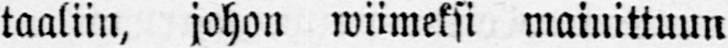taliin, johon wiiimeksi mainittuun
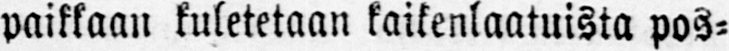paikkaan kuletetaan kaikenlaatuista pos-
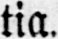tia.
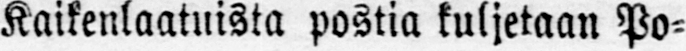Kaikenlaatuista postia kuljetaan Po-
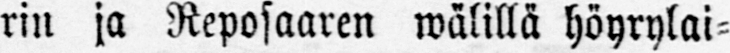rin ja Reposaaren wälillä höyrylai-
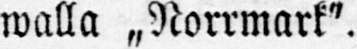walla „Norrmark".
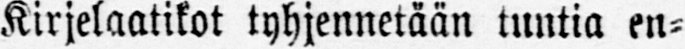Kirjelaatikot tyhjennetään tuntia en-
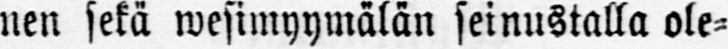nen sekä wesimyymälän seinustalla ole-
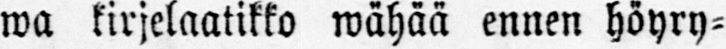wa kirjelaatikko wähää ennen höyry-
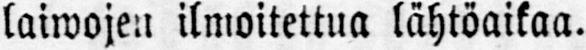laiwojen ilmoitettua lähtöaikaa.
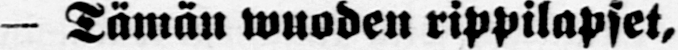— Tämän wuoden rippilapiet,
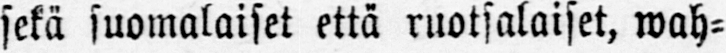sekä suomalaiset että ruotsalaiset, wah-
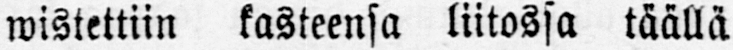wistettiin kasteensa liitossa täällä
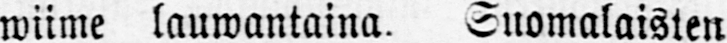wiime lauwantaina. Suomalaisten
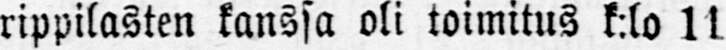rippilasten kanssa oli toimitus k:lo 11
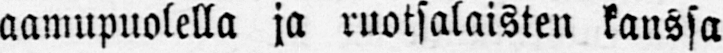aamupuolella ja ruotsalaisten kanssa
